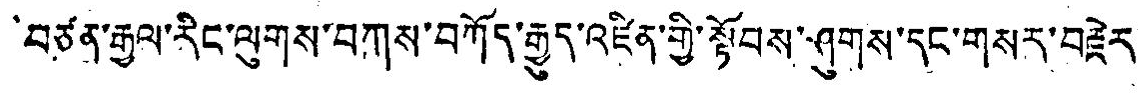བཙན་རྒྱལ་རིང་ལུགས་བཀས་བཀོད་རྒྱུད་འཛིན་གྱི་སྟོབས་ཤུགས་དང་གསར་བརྗེར་
